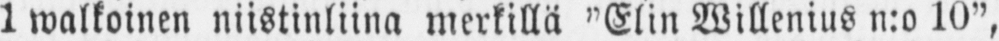1 walkoinen niistinliina merkillä ”Elin Millenius n:o 10”,
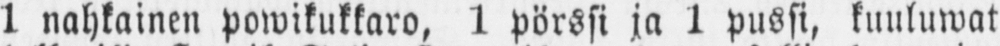1 nahkainen powikukkaro, 1 pörssi ja 1 pussi, kuuluwat
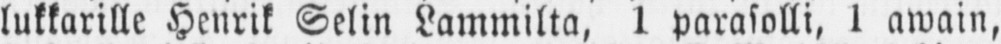lukkarille Henrik Selin Lammilta, 1 parasolli, 1 awain,
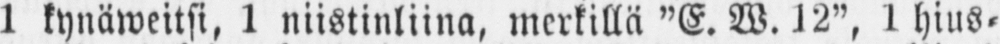1 kynäweitsi, 1 niistinliina, merkillä ”E. W. 12”, 1 hius-
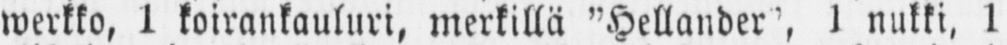werkko, 1 koirankauluri, merkillä ”Hellander”, 1 nukki, 1
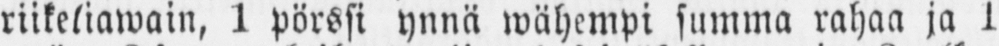riikeliawain, 1 pörssi ynnä wähempi summa rahaa ja 1
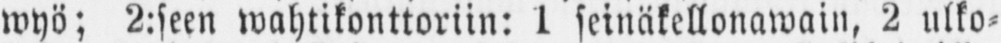wyö; 2:seen wahtikonttoriin: 1 seinäkellonawain, 2 ulko-
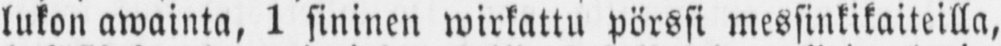lukon awainta, 1 sininen wirkattu pörssi messinkikaiteilla,
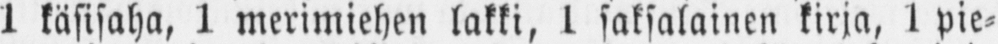1 käsisaha, 1 merimiehen lakki, 1 saksalainen kirja, 1 pie-
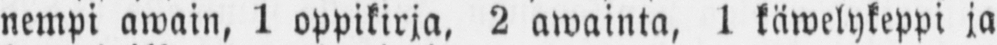nempi awain, 1 oppikirja, 2 awainta, 1 käwelykeppi ja
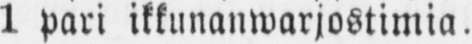1 pari ikkunanwarjostimia.
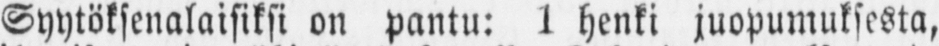Syytöksenalaisiksi on pantu: 1 henki juopumuksesta,
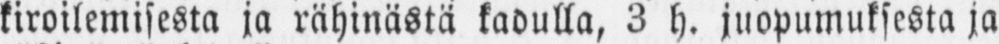kiroilemisesta ja rähinästä kadulla, 3 h. juopumuksesta ja
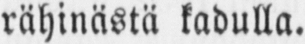rähinästä kadulla.
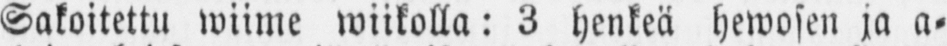Sakoitettu wiime wiikolla: 3 henkeä hewosen ja a-
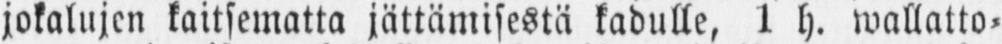jokalujen kaitsematta jättämisestä kadulle, 1 h. wallatto-
